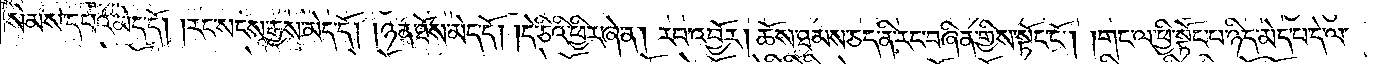སེམས་དཔའ་མེད་དོ། །རང་སངས་རྒྱས་མེད་དོ། །ཉན་ཐོས་མེད་དོ། །དེ་ཅིའི་ཕྱིར་ཞེ་ན། རབ་འབྱོར། ཆོས་ཐམས་ཅད་ནི་རང་བཞིན་གྱིས་སྟོང་ངོ༌། །གང་ལ་ཕྱི་སྟོང་པ་ཉིད་མེད་པ་དེ་ལ་
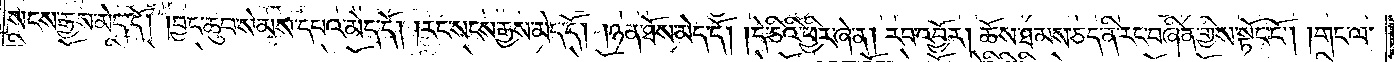སངས་རྒྱས་མེད་དོ། །བྱང་ཆུབ་སེམས་དཔའ་མེད་དོ། །རང་སངས་རྒྱས་མེད་དོ། །ཉན་ཐོས་མེད་དོ། །དེ་ཅིའི་ཕྱིར་ཞེ་ན། རབ་འབྱོར། ཆོས་ཐམས་ཅད་ནི་རང་བཞིན་གྱིས་སྟོང་ངོ༌། །གང་ལ་
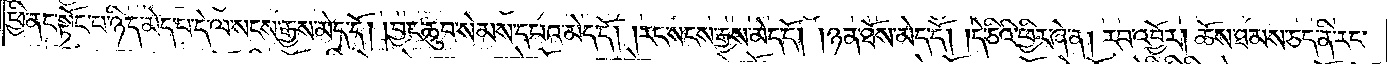ཕྱི་ནང་སྟོང་པ་ཉིད་མེད་པ་དེ་ལ་སངས་རྒྱས་མེད་དོ། །བྱང་ཆུབ་སེམས་དཔའ་མེད་དོ། །རང་སངས་རྒྱས་མེད་དོ། །ཉན་ཐོས་མེད་དོ། །དེ་ཅིའི་ཕྱིར་ཞེ་ན། རབ་འབྱོར། ཆོས་ཐམས་ཅད་ནི་རང་
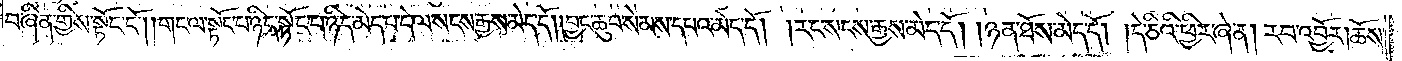བཞིན་གྱིས་སྟོང་ངོ༌། །གང་ལ་སྟོང་པ་ཉིད་སྟོང་པ་ཉིད་མེད་པ་དེ་ལ་སངས་རྒྱས་མེད་དོ། །བྱང་ཆུབ་སེམས་དཔའ་མེད་དོ། །རང་སངས་རྒྱས་མེད་དོ། །ཉན་ཐོས་མེད་དོ། །དེ་ཅིའི་ཕྱིར་ཞེ་ན། རབ་འབྱོར། ཆོས་
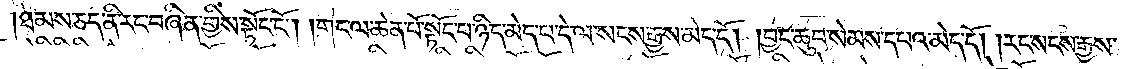ཐམས་ཅད་ནི་རང་བཞིན་གྱིས་སྟོང་ངོ༌། །གང་ལ་ཆེན་པོ་སྟོང་པ་ཉིད་མེད་པ་དེ་ལ་སངས་རྒྱས་མེད་དོ། །བྱང་ཆུབ་སེམས་དཔའ་མེད་དོ། །རང་སངས་རྒྱས་
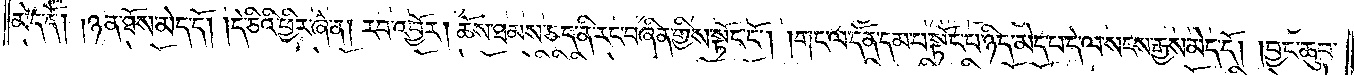མེད་དོ། །ཉན་ཐོས་མེད་དོ། །དེ་ཅིའི་ཕྱིར་ཞེ་ན། རབ་འབྱོར། ཆོས་ཐམས་ཅད་ནི་རང་བཞིན་གྱིས་སྟོང་ངོ༌། །གང་ལ་དོན་དམ་པ་སྟོང་པ་ཉིད་མེད་པ་དེ་ལ་སངས་རྒྱས་མེད་དོ། །བྱང་ཆུབ་
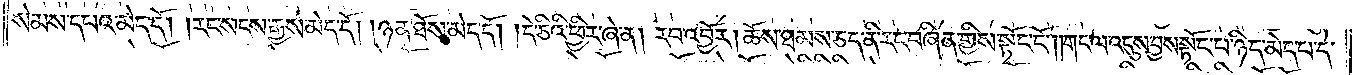སེམས་དཔའ་མེད་དོ། །རང་སངས་རྒྱས་མེད་དོ། །ཉན་ཐོས་མེད་དོ། །དེ་ཅིའི་ཕྱིར་ཞེ་ན། རབ་འབྱོར། ཆོས་ཐམས་ཅད་ནི་རང་བཞིན་གྱིས་སྟོང་ངོ༌། །གང་ལ་འདུས་བྱས་སྟོང་པ་ཉིད་མེད་པ་དེ་
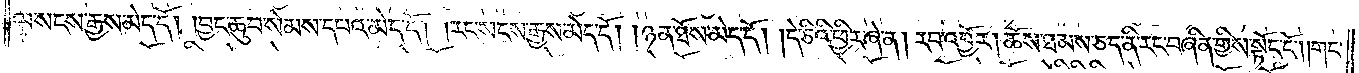ལ་སངས་རྒྱས་མེད་དོ། །བྱང་ཆུབ་སེམས་དཔའ་མེད་དོ། །རང་སངས་རྒྱས་མེད་དོ། །ཉན་ཐོས་མེད་དོ། །དེ་ཅིའི་ཕྱིར་ཞེ་ན། རབ་འབྱོར། ཆོས་ཐམས་ཅད་ནི་རང་བཞིན་གྱིས་སྟོང་ངོ༌། །གང་
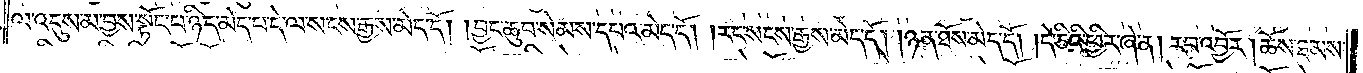ལ་འདུས་མ་བྱས་སྟོང་པ་ཉིད་མེད་པ་དེ་ལ་སངས་རྒྱས་མེད་དོ། །བྱང་ཆུབ་སེམས་དཔའ་མེད་དོ། །རང་སངས་རྒྱས་མེད་དོ། །ཉན་ཐོས་མེད་དོ། །དེ་ཅིའི་ཕྱིར་ཞེ་ན། རབ་འབྱོར། ཆོས་ཐམས་
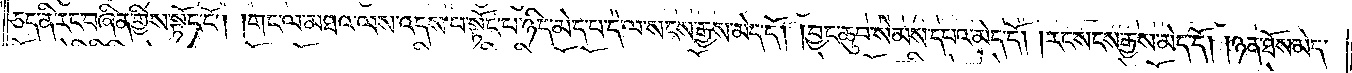ཅད་ནི་རང་བཞིན་གྱིས་སྟོང་ངོ༌། །གང་ལ་མཐའ་ལས་འདས་པ་སྟོང་པ་ཉིད་མེད་པ་དེ་ལ་སངས་རྒྱས་མེད་དོ། །བྱང་ཆུབ་སེམས་དཔའ་མེད་དོ། །རང་སངས་རྒྱས་མེད་དོ། །ཉན་ཐོས་མེད་
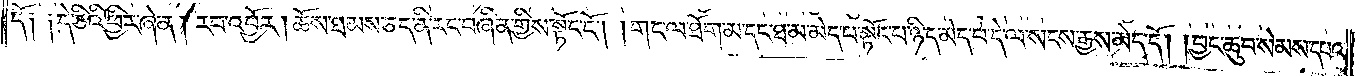དོ༑ ༑དེ་ཅིའི་ཕྱིར་ཞེ་ན། རབ་འབྱོར། ཆོས་ཐམས་ཅད་ནི་རང་བཞིན་གྱིས་སྟོང་ངོ༌། །གང་ལ་ཐོག་མ་དང་ཐ་མ་མེད་པ་སྟོང་པ་ཉིད་མེད་པ་དེ་ལ་སངས་རྒྱས་མེད་དོ། །བྱང་ཆུབ་སེམས་དཔའ་
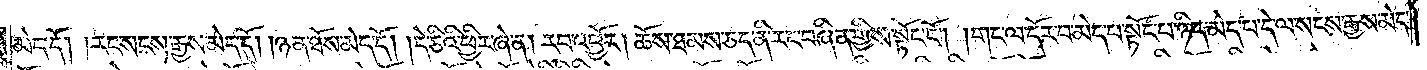མེད་དོ། །རང་སངས་རྒྱས་མེད་དོ། །ཉན་ཐོས་མེད་དོ། །དེ་ཅིའི་ཕྱིར་ཞེ་ན། རབ་འབྱོར། ཆོས་ཐམས་ཅད་ནི་རང་བཞིན་གྱིས་སྟོང་ངོ༌། །གང་ལ་དོར་བ་མེད་པ་སྟོང་པ་ཉིད་མེད་པ་དེ་ལ་སངས་རྒྱས་མེད་
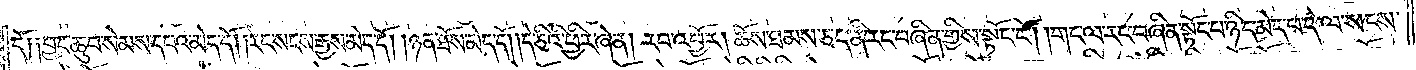དོ༑ ༑བྱང་ཆུབ་སེམས་དཔའ་མེད་དོ། །རང་སངས་རྒྱས་མེད་དོ། །ཉན་ཐོས་མེད་དོ། །དེ་ཅིའི་ཕྱིར་ཞེ་ན། རབ་འབྱོར། ཆོས་ཐམས་ཅད་ནི་རང་བཞིན་གྱིས་སྟོང་ངོ༌། །གང་ལ་རང་བཞིན་སྟོང་པ་ཉིད་མེད་པ་དེ་ལ་སངས་
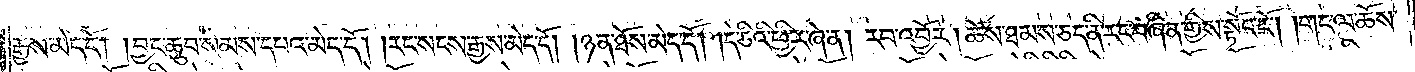རྒྱས་མེད་དོ། །བྱང་ཆུབ་སེམས་དཔའ་མེད་དོ། །རང་སངས་རྒྱས་མེད་དོ། །ཉན་ཐོས་མེད་དོ། །དེ་ཅིའི་ཕྱིར་ཞེ་ན། རབ་འབྱོར། ཆོས་ཐམས་ཅད་ནི་རང་བཞིན་གྱིས་སྟོང་ངོ༌། །གང་ལ་ཆོས་
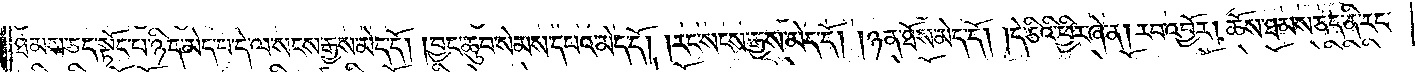ཐམས་ཅད་སྟོང་པ་ཉིད་མེད་པ་དེ་ལ་སངས་རྒྱས་མེད་དོ། །བྱང་ཆུབ་སེམས་དཔའ་མེད་དོ། །རང་སངས་རྒྱས་མེད་དོ། །ཉན་ཐོས་མེད་དོ། །དེ་ཅིའི་ཕྱིར་ཞེ་ན། རབ་འབྱོར། ཆོས་ཐམས་ཅད་ནི་རང་
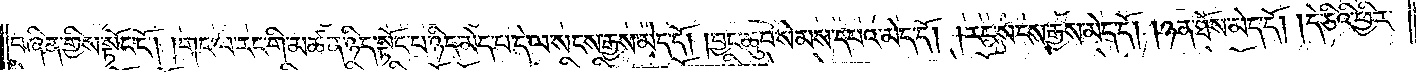བཞིན་གྱིས་སྟོང་ངོ༌། །གང་ལ་རང་གི་མཚན་ཉིད་སྟོང་པ་ཉིད་མེད་པ་དེ་ལ་སངས་རྒྱས་མེད་དོ། །བྱང་ཆུབ་སེམས་དཔའ་མེད་དོ། །རང་སངས་རྒྱས་མེད་དོ། །ཉན་ཐོས་མེད་དོ། །དེ་ཅིའི་ཕྱིར་
